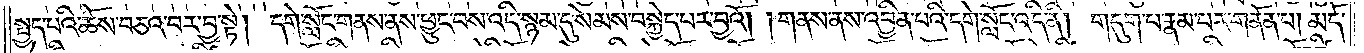སྤྱད་པའི་ཆོས་བཅའ་བར་བྱ་སྟེ།<gap>དགེ་སློང་གནས་ནས་ཕྱུང་བས་འདི་སྙམ་དུ་སེམས་བསྐྱེད་པར་བྱའོ། །གནས་ནས་འབྱིན་པའི་དགེ་སློང་འདི་ནི། གདུག་པ་རྣམ་པར་གནོན་པ། མདོ་
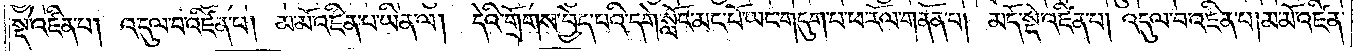སྡེ་འཛིན་པ། འདུལ་བ་འཛིན་པ། མ་མོ་འཛིན་པ་ཡིན་ལ། དེའི་གྲོགས་བྱེད་པའི་དགེ་སློང་མང་པོ་ཡང་གདུག་པ་ཕ་རོལ་གནོན་པ། མདོ་སྡེ་འཛིན་པ། འདུལ་བ་འཛིན་པ། མ་མོ་འཛིན་
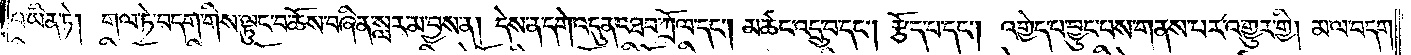པ་ཡིན་ཏེ། གལ་ཏེ་བདག་གིས་ལྟུང་བ་ཆོས་བཞིན་སླར་མ་བྱས་ན། དེས་ན་དགེ་འདུན་འཐབ་ཀྲོལ་དང༌། མཚང་འདྲུ་བ་དང༌། རྩོད་པ་དང༌། འགྱེད་པ་བྱུང་བས་གནས་པར་འགྱུར་གྱི། མ་ལ་བདག་
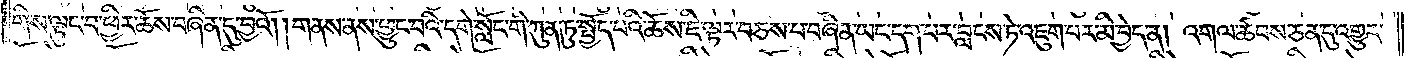གིས་ལྟུང་བ་ཕྱིར་ཆོས་བཞིན་དུ་བྱའོ། །གནས་ནས་ཕྱུང་བའི་དགེ་སློང་གི་ཀུན་ཏུ་སྤྱོད་པའི་ཆོས་ཇི་ལྟར་བཅས་པ་བཞིན་ཡང་དག་པར་བླངས་ཏེ་འཇུག་པར་མི་བྱེད་ན། འགལ་ཚབས་ཅན་དུ་འགྱུར་
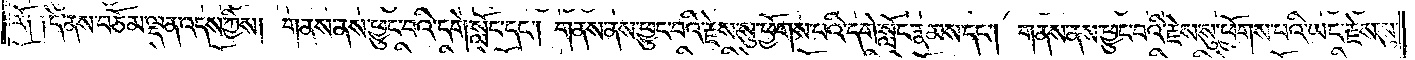རོ༑ ༑དེ་ནས་བཅོམ་ལྡན་འདས་ཀྱིས། གནས་ནས་ཕྱུང་བའི་དགེ་སློང་དང༌། གནས་ནས་ཕྱུང་བའི་རྗེས་སུ་ཕྱོགས་པའི་དགེ་སློང་རྣམས་དང༌། གནས་ནས་ཕྱུང་བའི་རྗེས་སུ་ཕྱོགས་པའི་ཡང་རྗེས་སུ་
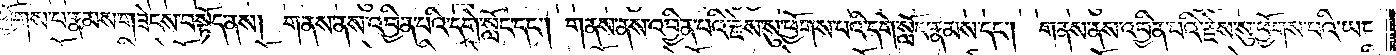ཕྱོགས་པ་རྣམས་གཟེངས་བསྟོད་ནས། གནས་ནས་འབྱིན་པའི་དགེ་སློང་དང༌། གནས་ནས་འབྱིན་པའི་རྗེས་སུ་ཕྱོགས་པའི་དགེ་སློང་རྣམས་དང༌། གནས་ནས་འབྱིན་པའི་རྗེས་སུ་ཕྱོགས་པའི་ཡང་
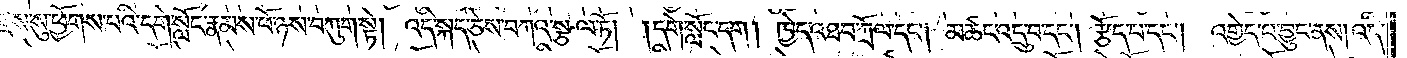རྗེས་སུ་ཕྱོགས་པའི་དགེ་སློང་རྣམས་ཕོ་ཉས་བཀུག་སྟེ། འདི་སྐད་ཅེས་བཀའ་སྩལ་ཏོ། །དགེ་སློང་དག །ཁྱེད་འཐབ་ཀྲོལ་དང༌། མཚང་འདྲུ་བ་དང༌། རྩོད་པ་དང༌། འགྱེད་པ་བྱུང་ནས། འདི་
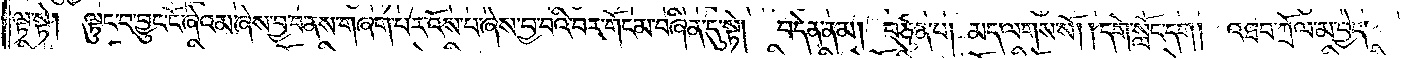ལྟ་སྟེ། ལྟུང་བ་བྱུང་ངོ་ཞེའམ་ཞེས་བྱ་བ་ནས་གཞག་པར་འོས་པ་ཞེས་བྱ་བའི་བར་གོང་མ་བཞིན་དུ་སྟེ། བདེན་ནམ། བཙུན་པ། མད་ལགས་སོ། །དགེ་སློང་དག །འཐབ་ཀྲོལ་མ་བྱེད་
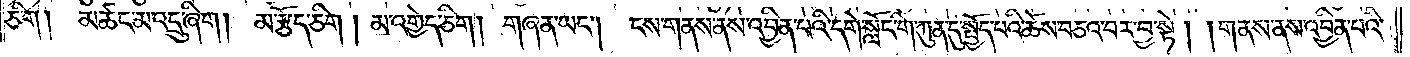ཅིག །མཚང་མ་འདྲུ་ཞིག །མ་རྩོད་ཅིག །མ་འགྱེད་ཅིག །གཞན་ཡང༌། ངས་གནས་ནས་འབྱིན་པའི་དགེ་སློང་གི་ཀུན་དུ་སྤྱོད་པའི་ཆོས་བཅའ་བར་བྱ་སྟེ། གནས་ནས་འབྱིན་པའི་
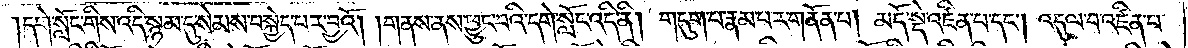།དགེ་སློང་གིས་འདི་སྙམ་དུ་སེམས་བསྐྱེད་པར་བྱའོ། །གནས་ནས་ཕྱུང་བའི་དགེ་སློང་འདི་ནི། གདུག་པ་རྣམ་པར་གནོན་པ། མདོ་སྡེ་འཛིན་པ་དང༌། འདུལ་བ་འཛིན་པ་
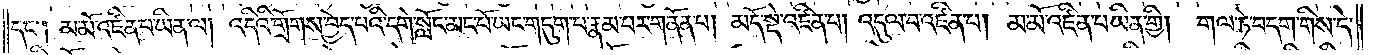དང༌། མ་མོ་འཛིན་པ་ཡིན་ལ། འདིའི་གྲོགས་བྱེད་པའི་དགེ་སློང་མང་པོ་ཡང་གདུག་པ་རྣམ་པར་གནོན་པ། མདོ་སྡེ་འཛིན་པ། འདུལ་བ་འཛིན་པ། མ་མོ་འཛིན་པ་ཡིན་གྱི། གལ་ཏེ་བདག་གིས་དེ་
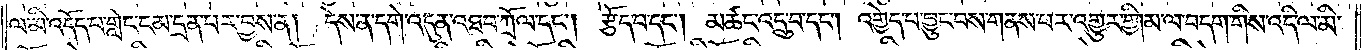ལ་མི་འདོད་པ་གླེང་ངམ་དྲན་པར་བྱས་ན། དེས་ན་དགེ་འདུན་འཐབ་ཀྲོལ་དང༌། རྩོད་པ་དང༌། མཚང་འདྲུ་བ་དང༌། འགྱེད་པ་བྱུང་བས་གནས་པར་འགྱུར་གྱི། མ་ལ་བདག་གིས་འདི་ལ་མི་
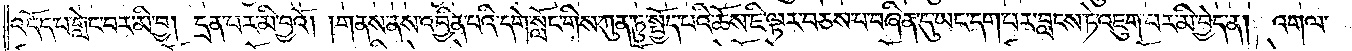འདོད་པ་གླེང་བར་མི་བྱ། དྲན་པར་མི་བྱའོ། །གནས་ནས་འབྱིན་པའི་དགེ་སློང་གིས་ཀུན་ཏུ་སྤྱོད་པའི་ཆོས་ཇི་ལྟར་བཅས་པ་བཞིན་དུ་ཡང་དག་པར་བླངས་ཏེ་འཇུག་པར་མི་བྱེད་ན། འགལ་
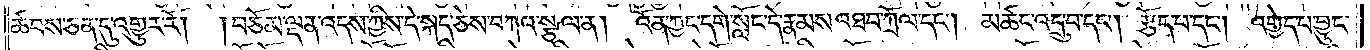ཚབས་ཅན་དུ་འགྱུར་རོ། །བཅོམ་ལྡན་འདས་ཀྱིས་དེ་སྐད་ཅེས་བཀའ་སྩལ་ན། འོན་ཀྱང་དགེ་སློང་དེ་རྣམས་འཐབ་ཀྲོལ་དང༌། མཚང་འདྲུ་བ་དང༌། རྩོད་པ་དང༌། འགྱེད་པ་བྱུང་
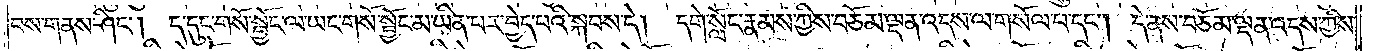བས་གནས་ཤིང༌། ད་དུང་གསོ་སྦྱོང་ལ་ཡང་གསོ་སྦྱོང་མ་ཡིན་པར་བྱེད་པའི་སྐབས་དེ། དགེ་སློང་རྣམས་ཀྱིས་བཅོམ་ལྡན་འདས་ལ་གསོལ་པ་དང༌། དེ་ནས་བཅོམ་ལྡན་འདས་ཀྱིས་
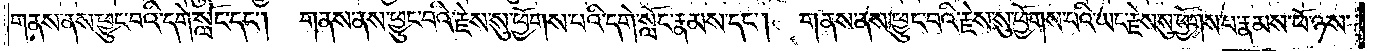གནས་ནས་ཕྱུང་བའི་དགེ་སློང་དང༌།  གནས་ནས་ཕྱུང་བའི་རྗེས་སུ་ཕྱོགས་པའི་དགེ་སློང་རྣམས་དང༌། གནས་ནས་ཕྱུང་བའི་རྗེས་སུ་ཕྱོགས་པའི་ཡང་རྗེས་སུ་ཕྱོགས་པ་རྣམས་ཕོ་ཉས་
